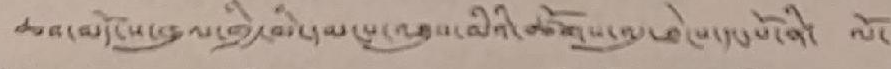ཆབ་མདོ་ས་ཁུལ་གྱི་མི་དམངས་འཐུས་མིའི་ཚོགས་འདུ་ཐེངས་དང་པོ་ནི་ ལོ་
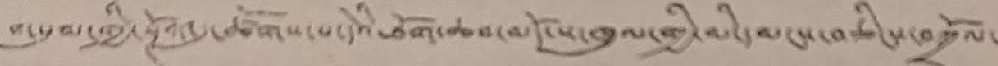གསུམ་གྱི་སྔོན་དུ་ཚོགས་པ་དེའི་ཐོག་ཆབ་མདོ་ས་ཁུལ་གྱི་མི་དམངས་བཅིངས་བགྲོལ་
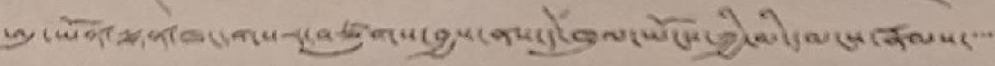ཨུ་ཡོན་ལྷན་ཁང་གསར་བཙུགས་བྱས་ནས་དེ་ཁུལ་ཡོངས་ཀྱི་མི་དམངས་རྣམས་་་་་
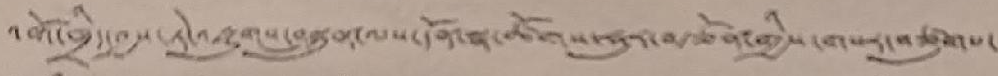འགོ་ཁྲིད་བྱས་ཏེ་འཛུགས་བསྐྲུན་ལས་དོན་སྣ་ཚོགས་ཧུར་བརྩོན་གྱིས་གསར་བཙུགས་
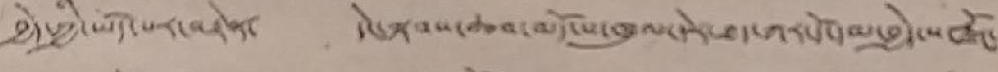བྱེད་ཀྱི་ཡོད་པར་བརྟེན་ དེང་སྐབས་ཆབ་མདོ་ས་ཁུལ་དེར་ཐད་ཀར་དོ་དམ་བྱེད་ས་སྒོ་
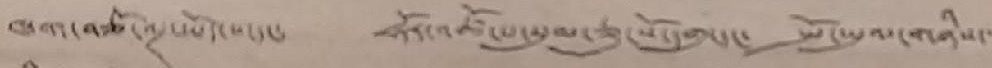ཁག་བཙོ་ལྔ་ཡོད་པ་དང་ ཧོར་འཚོང་པ་སུམ་ཅུ་སོ་དགུ་དང་ སྤོ་ཡུལ་གཉིས་
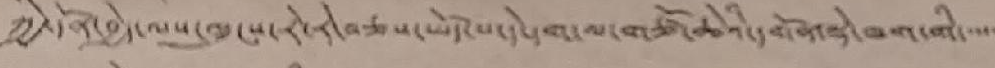ཀྱི་དོན་བྱེད་ལས་ཁུངས་རེ་རེ་བཅས་ཡོད་པ་དེ་དག་ལ་གཙོ་ཆེའི་དགོན་སྡེ་ཁཧ་གི་་་་་
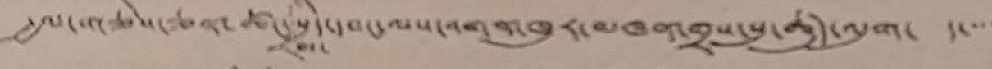རྒྱལ་གཅེས་ཅན་ཚང་མ་སྲིད་དབང་ལས་འགན་ཁུར་མཁན་གྲས་སུ་ཚུད་འདུག་ ད་་་་
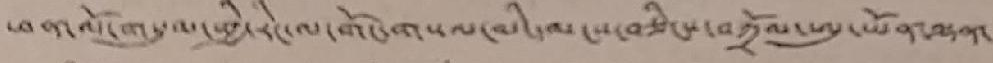ཕན་ལོ་གསུམ་གྱི་རིང་ལ་གོང་གསལ་མི་དམངས་བཅིངས་བཀྲོལ་ཨུ་ཡོན་ལྷན་
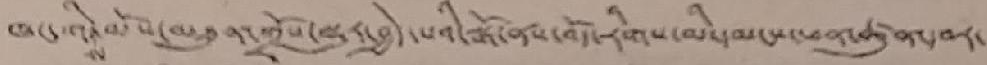ཁང་གིས་མོས་མཐུན་གྲོས་སྡུར་བྱེད་པའི་སྒོ་ནས་བོད་རིགས་མི་དམངས་ཕན་ཚུན་བར་
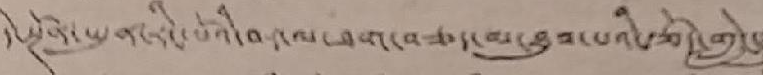དེ་སྔོན་ཡུན་རིང་པོའི་བར་ལ་ཐག་བཅད་མ་ཐུབ་པའི་རྩོད་གླེང་
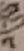འ
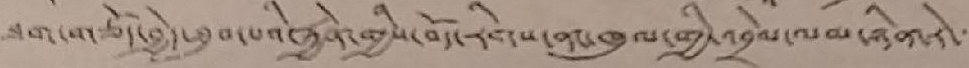ཐག་གཅོད་བྱེད་ཐུབ་པའི་རྐྱེན་གྱི་བོད་རིགས་ནང་ཁུལ་གྱི་འབྲེལ་ལམ་ཉིན་རེ་་་
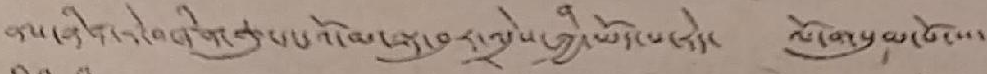ནས་ཉིན་རེ་བཞིན་ཆུ་དང་འོ་མ་ལྟ་བུར་འདྲེས་ཀྱི་ཡོད་པ་རེད་ ལོ་གསུམ་པོ་་་་
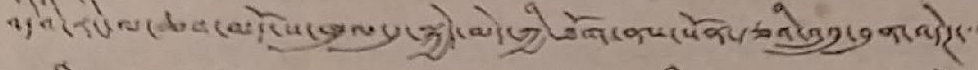འདིའི་རིང་ལ་ཆབ་མདོ་ས་ཁུལ་དུ་སྐྱེ་མེད་ཀྱི་ཐོག་ནས་སོན་རྩའི་འབྲུ་བུན་འདེཊ་་་་
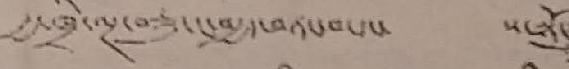རྒྱ་ཁྲི་ལྔ་བཅུ་ང་བརྒྱད་བཏང་བ་དང་ ས་སྟོང
